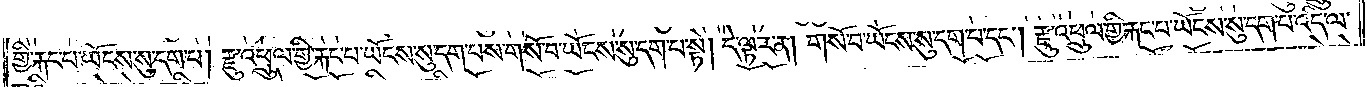གྱི་རྐང་པ་ཡོངས་སུ་དག་པ། རྫུ་འཕྲུལ་གྱི་རྐང་པ་ཡོངས་སུ་དག་པས་གསོ་བ་ཡོངས་སུ་དག་པ་སྟེ། དེ་ལྟར་ན། གསོ་བ་ཡོངས་སུ་དག་པ་དང༌། རྫུ་འཕྲུལ་གྱི་རྐང་པ་ཡོངས་སུ་དག་པ་འདི་ལ་
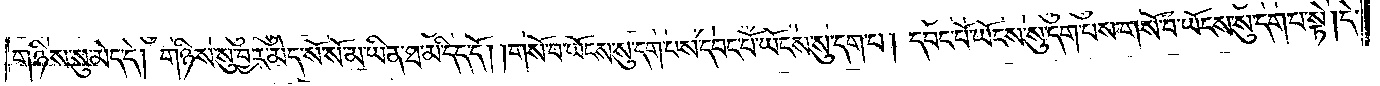གཉིས་སུ་མེད་དེ། གཉིས་སུ་བྱར་མེད་སོ་སོ་མ་ཡིན་ཐ་མི་དད་དོ། །གསོ་བ་ཡོངས་སུ་དག་པས་དབང་པོ་ཡོངས་སུ་དག་པ། དབང་པོ་ཡོངས་སུ་དག་པས་གསོ་བ་ཡོངས་སུ་དག་པ་སྟེ། དེ་
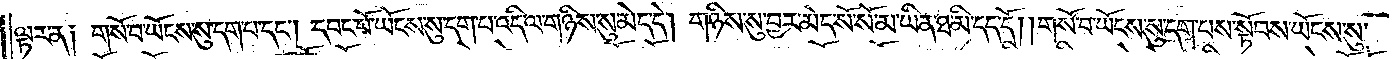ལྟར་ན༑ གསོ་བ་ཡོངས་སུ་དག་པ་དང༌། དབང་པོ་ཡོངས་སུ་དག་པ་འདི་ལ་གཉིས་སུ་མེད་དེ། གཉིས་སུ་བྱར་མེད་སོ་སོ་མ་ཡིན་ཐ་མི་དད་དོ། །གསོ་བ་ཡོངས་སུ་དག་པས་སྟོབས་ཡོངས་སུ་
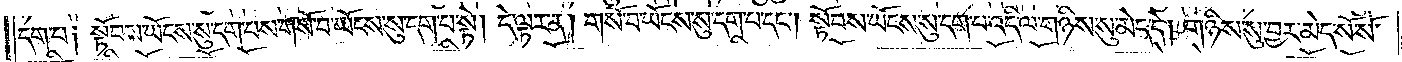དག་པ༑ སྟོབས་ཡོངས་སུ་དག་པས་གསོ་བ་ཡོངས་སུ་དག་པ་སྟེ། དེ་ལྟར་ན། གསོ་བ་ཡོངས་སུ་དག་པ་དང༌། སྟོབས་ཡོངས་སུ་དག་པ་འདི་ལ་གཉིས་སུ་མེད་དེ། གཉིས་སུ་བྱར་མེད་སོ་སོ་
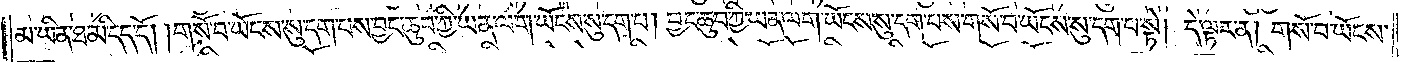མ་ཡིན་ཐ་མི་དད་དོ། །གསོ་བ་ཡོངས་སུ་དག་པས་བྱང་ཆུབ་ཀྱི་ཡན་ལག་ཡོངས་སུ་དག་པ། བྱང་ཆུབ་ཀྱི་ཡན་ལག་ཡོངས་སུ་དག་པས་གསོ་བ་ཡོངས་སུ་དག་པ་སྟེ། དེ་ལྟར་ན། གསོ་བ་ཡོངས་
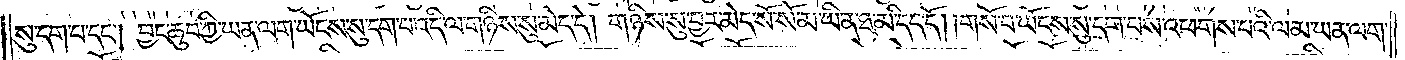སུ་དག་པ་དང༌། བྱང་ཆུབ་ཀྱི་ཡན་ལག་ཡོངས་སུ་དག་པ་འདི་ལ་གཉིས་སུ་མེད་དེ། གཉིས་སུ་བྱར་མེད་སོ་སོ་མ་ཡིན་ཐ་མི་དད་དོ། །གསོ་བ་ཡོངས་སུ་དག་པས་འཕགས་པའི་ལམ་ཡན་ལག་
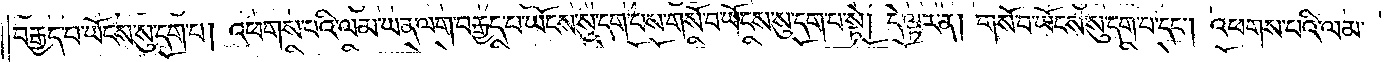བརྒྱད་པ་ཡོངས་སུ་དག་པ། འཕགས་པའི་ལམ་ཡན་ལག་བརྒྱད་པ་ཡོངས་སུ་དག་པས་གསོ་བ་ཡོངས་སུ་དག་པ་སྟེ། དེ་ལྟར་ན། གསོ་བ་ཡོངས་སུ་དག་པ་དང༌། འཕགས་པའི་ལམ་
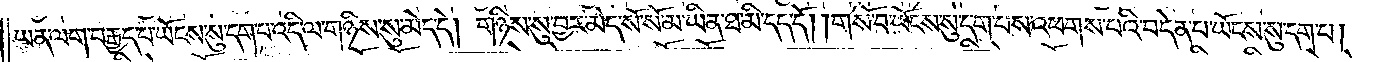ཡན་ལག་བརྒྱད་པ་ཡོངས་སུ་དག་པ་འདི་ལ་གཉིས་སུ་མེད་དེ། གཉིས་སུ་བྱར་མེད་སོ་སོ་མ་ཡིན་ཐ་མི་དད་དོ། །གསོ་བ་ཡོངས་སུ་དག་པས་འཕགས་པའི་བདེན་པ་ཡོངས་སུ་དག་པ།
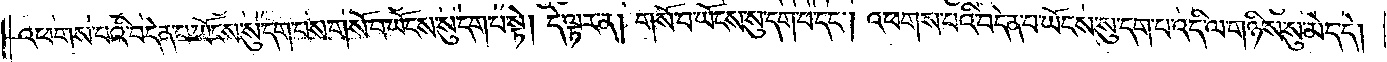འཕགས་པའི་བདེན་པ་ཡོངས་སུ་དག་པས་གསོ་བ་ཡོངས་སུ་དག་པ་སྟེ། དེ་ལྟར་ན། གསོ་བ་ཡོངས་སུ་དག་པ་དང༌། འཕགས་པའི་བདེན་པ་ཡོངས་སུ་དག་པ་འདི་ལ་གཉིས་སུ་མེད་དེ།
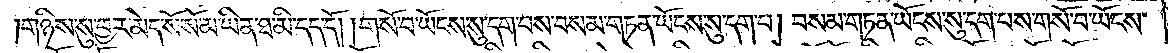གཉིས་སུ་བྱར་མེད་སོ་སོ་མ་ཡིན་ཐ་མི་དད་དོ། །གསོ་བ་ཡོངས་སུ་དག་པས་བསམ་གཏན་ཡོངས་སུ་དག་པ། བསམ་གཏན་ཡོངས་སུ་དག་པས་གསོ་བ་ཡོངས་
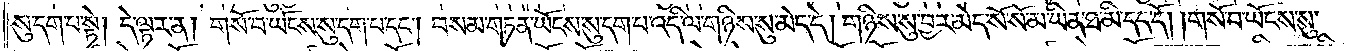སུ་དག་པ་སྟེ། དེ་ལྟར་ན། གསོ་བ་ཡོངས་སུ་དག་པ་དང༌། བསམ་གཏན་ཡོངས་སུ་དག་པ་འདི་ལ་གཉིས་སུ་མེད་དེ། གཉིས་སུ་བྱར་མེད་སོ་སོ་མ་ཡིན་ཐ་མི་དད་དོ། །གསོ་བ་ཡོངས་སུ་
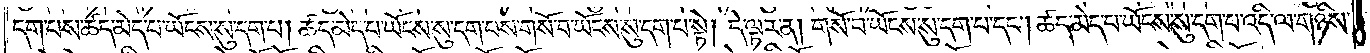དག་པས་ཚད་མེད་པ་ཡོངས་སུ་དག་པ། ཚད་མེད་པ་ཡོངས་སུ་དག་པས་གསོ་བ་ཡོངས་སུ་དག་པ་སྟེ། དེ་ལྟར་ན། གསོ་བ་ཡོངས་སུ་དག་པ་དང༌། ཚད་མེད་པ་ཡོངས་སུ་དག་པ་འདི་ལ་གཉིས་
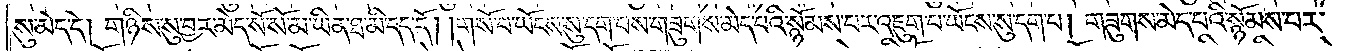སུ་མེད་དེ། གཉིས་སུ་བྱར་མེད་སོ་སོ་མ་ཡིན་ཐ་མི་དད་དོ། །གསོ་བ་ཡོངས་སུ་དག་པས་གཟུགས་མེད་པའི་སྙོམས་པར་འཇུག་པ་ཡོངས་སུ་དག་པ། གཟུགས་མེད་པའི་སྙོམས་པར་
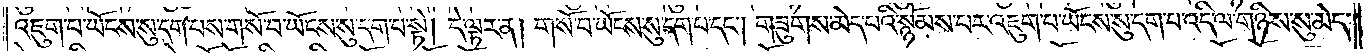འཇུག་པ་ཡོངས་སུ་དག་པས་གསོ་བ་ཡོངས་སུ་དག་པ་སྟེ། དེ་ལྟར་ན། གསོ་བ་ཡོངས་སུ་དག་པ་དང༌། གཟུགས་མེད་པའི་སྙོམས་པར་འཇུག་པ་ཡོངས་སུ་དག་པ་འདི་ལ་གཉིས་སུ་མེད་
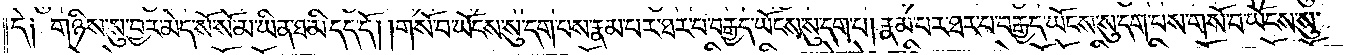དེ༑ གཉིས་སུ་བྱར་མེད་སོ་སོ་མ་ཡིན་ཐ་མི་དད་དོ། །གསོ་བ་ཡོངས་སུ་དག་པས་རྣམ་པར་ཐར་པ་བརྒྱད་ཡོངས་སུ་དག་པ། རྣམ་པར་ཐར་པ་བརྒྱད་ཡོངས་སུ་དག་པས་གསོ་བ་ཡོངས་སུ་
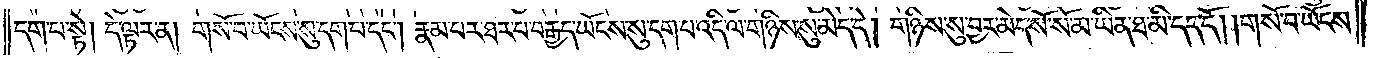དག་པ་སྟེ། དེ་ལྟར་ན། གསོ་བ་ཡོངས་སུ་དག་པ་དང༌། རྣམ་པར་ཐར་པ་བརྒྱད་ཡོངས་སུ་དག་པ་འདི་ལ་གཉིས་སུ་མེད་དེ། གཉིས་སུ་བྱར་མེད་སོ་སོ་མ་ཡིན་ཐ་མི་དད་དོ། །གསོ་བ་ཡོངས་
